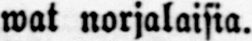wat norjalaisia.
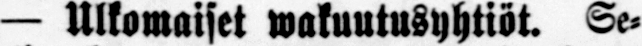— Ulkomaiset wakuutusyhtiöt. Se-
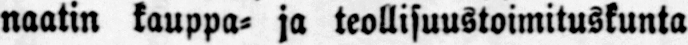naatin kauppa- ja teollisuustoimituskunta
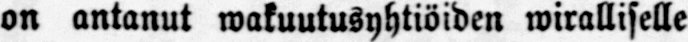on antanut wakuutusyhtiöiden wiralliselle
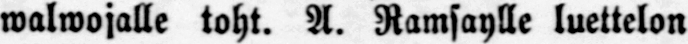walwojalle toht. A. Ramsaylle luettelon
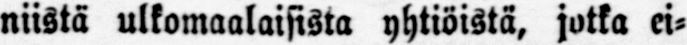niistä ulkomaalaisista yhtiöistä, jotka ei-
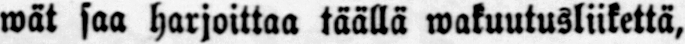wät saa harjoittaa täällä wakuutusliikettä,
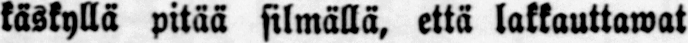käskyllä pitää silmällä, että lakkauttawat
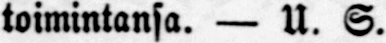toimintansa. — U. S.
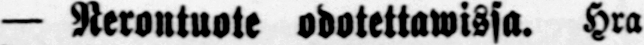— Nerontuote odotettawissa. Hra
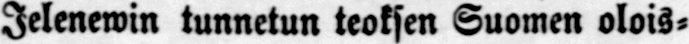Jelenewin tunnetun teoksen Suomen olois-
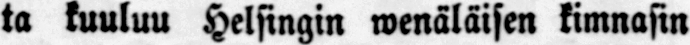ta kuuluu Helsingin wenäläisen kimnasin
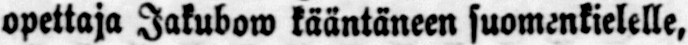opettaja Jakubow kääntäneen suomenkielelle,
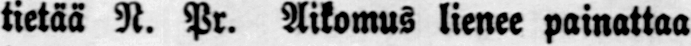tietää N. Pr. Aikomus lienee painattaa
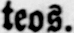teos.
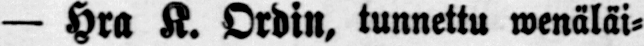— Hra K. Ordin, tunnettu wenäläi-
